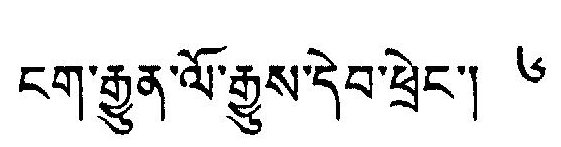ངག་རྒྱུན་ལོ་རྒྱུས་དེབ་ཕྲེང་། ༦
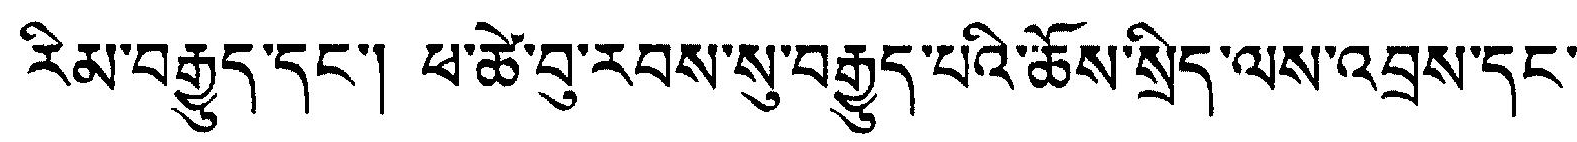རིམ་བརྒྱུད་དང་། ཕ་ཚེ་བུ་རབས་སུ་བརྒྱུད་པའི་ཆོས་སྲིད་ལས་འབྲས་དང་
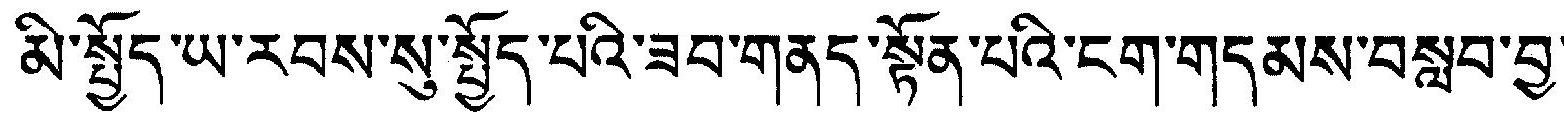མི་སྤྱོད་ཡ་རབས་སུ་སྤྱོད་པའི་ཟབ་གནད་སྟོན་པའི་ངག་གདམས་བསླབ་བྱ་
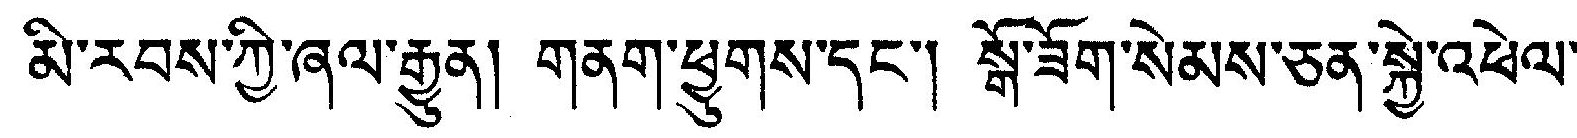མི་རབས་ཀྱི་ཞལ་རྒྱུན། གནག་ཕྱུགས་དང་། སྒོ་ཟོག་སེམས་ཅན་སྐྱེ་འཕེལ་
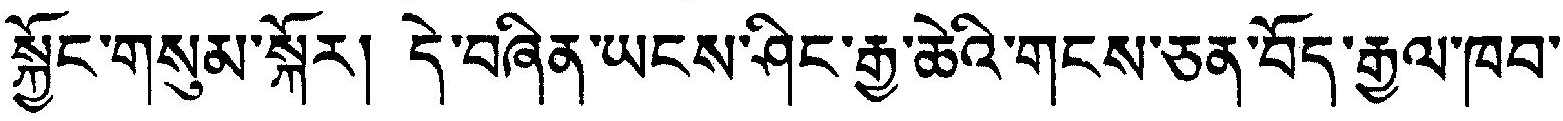སྐྱོང་གསུམ་སྐོར། དེ་བཞིན་ཡངས་ཤིང་རྒྱ་ཆེའི་གངས་ཅན་བོད་རྒྱལ་ཁབ་
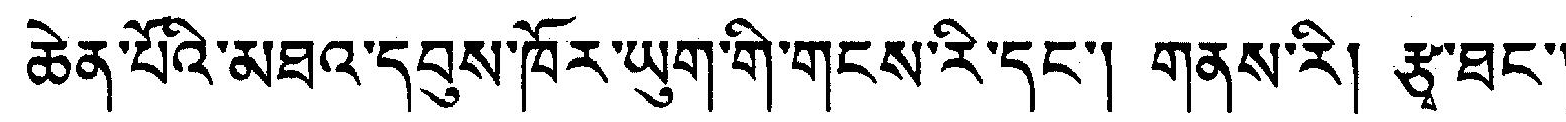ཆེན་པོའི་མཐའ་དབུས་ཁོར་ཡུག་གི་གངས་རི་དང་། གནས་རི། རྩྭ་ཐང་།
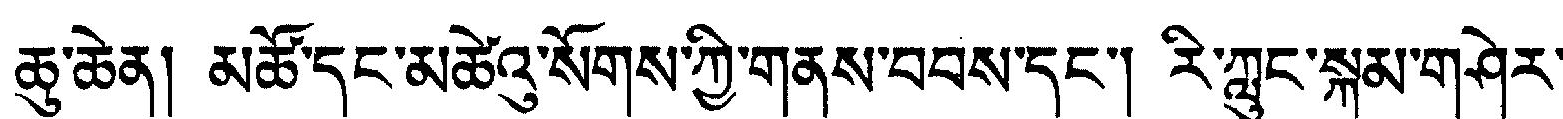ཆུ་ཆེན། མཚོ་དང་མཚེའུ་སོགས་ཀྱི་གནས་བབས་དང་། རི་ཀླུང་སྐམ་གཤེར་
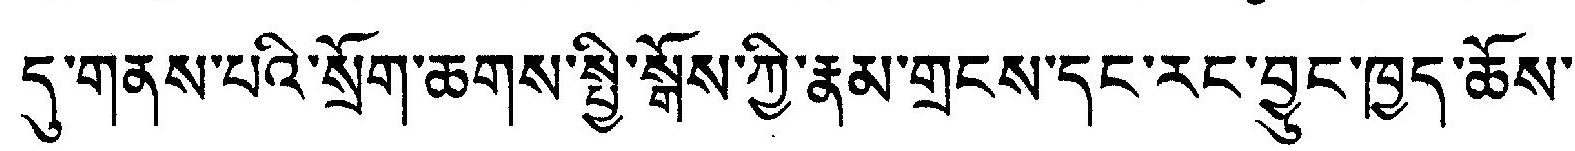དུ་གནས་པའི་སྲོག་ཆགས་སྤྱི་སྒོས་ཀྱི་རྣམ་གྲངས་དང་རང་བྱུང་ཁྱད་ཆོས་
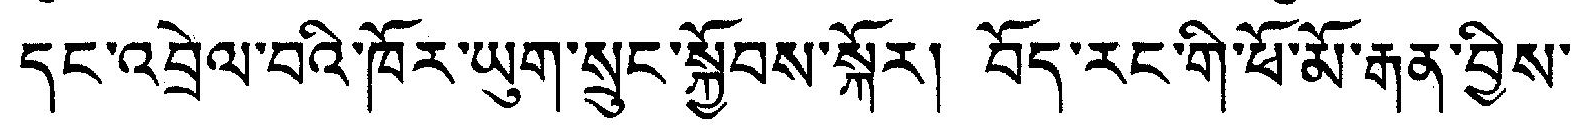དང་འབྲེལ་བའི་ཁོར་ཡུག་སྲུང་སྐྱོབས་སྐོར། བོད་རང་གི་ཕོ་མོ་རྒན་བྱིས་
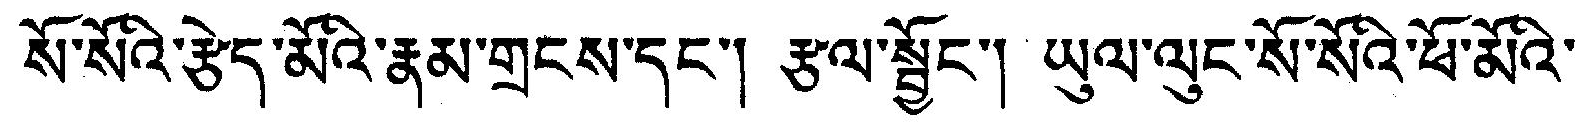སོ་སོའི་རྩེད་མོའི་རྣམ་གྲངས་དང་། རྩལ་སྦྱོང་། ཡུལ་ལུང་སོ་སོའི་ཕོ་མོའི་
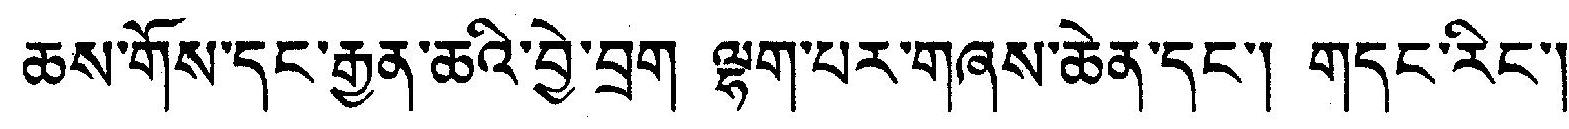ཆས་གོས་དང་རྒྱན་ཆའི་བྱེ་བྲག ལྷག་པར་གཞས་ཆེན་དང་། གདུང་རིང་།
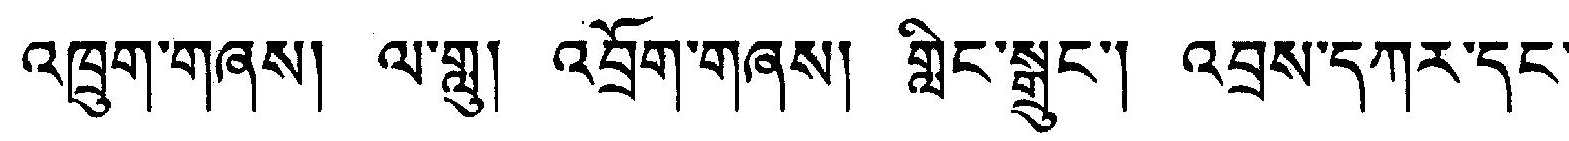འཁྲུག་གཞས། ལ་གླུ། འབྲོག་གཞས། གླིང་སྒྲུང་། འབྲས་དཀར་དང་
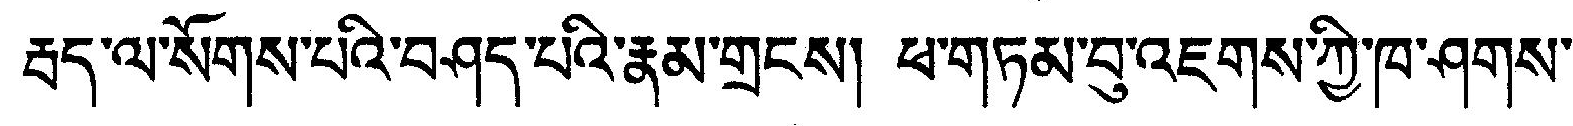རྦད་ལ་སོགས་པའི་བཤད་པའི་རྣམ་གྲངས། ཕ་གཏམ་བུ་འཇགས་ཀྱི་ཁ་ཤུགས་
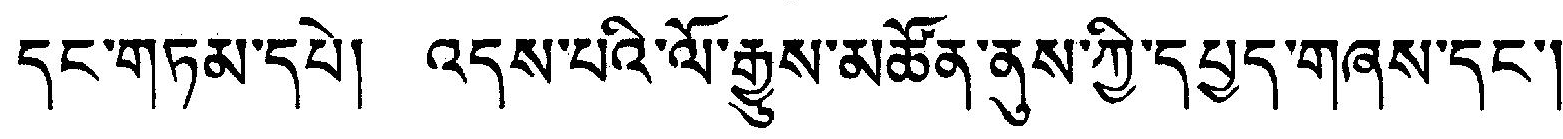དང་གཏམ་དཔེ། འདས་པའི་ལོ་རྒྱུས་མཚོན་ནུས་ཀྱི་དཔྱད་གཞས་དང་།
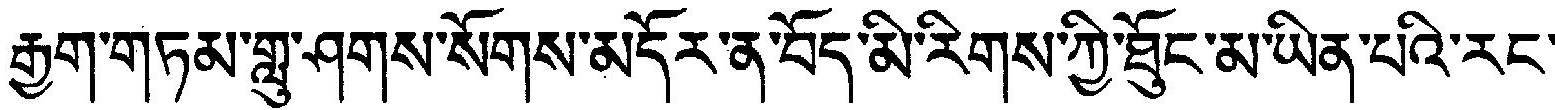རྒྱག་གཏམ་གླུ་ཤགས་སོགས་མདོར་ན་བོད་མི་རིགས་ཀྱི་ཐོུང་མ་ཡིན་པའི་རང་
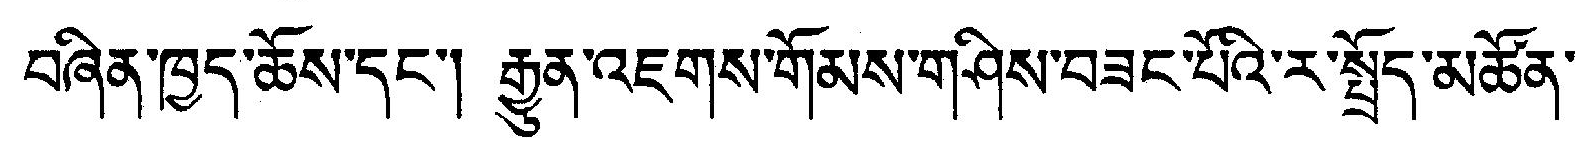བཞིན་ཁྱད་ཆོས་དང་། རྒྱུན་འཇགས་གོམས་གཤིས་བཟང་པོའི་ར་སྤྲོད་མཚོན་
